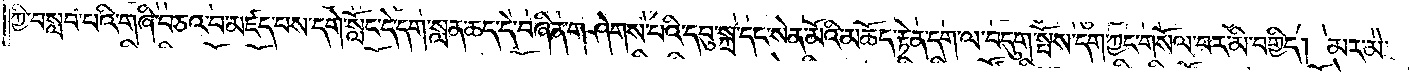ཀྱི་བསླབ་པའི་གཞི་བཅའ་བ་མཛད་པས་དགེ་སློང་དེ་དག་སླན་ཆད་དེ་བཞིན་གཤེགས་པའི་དབུ་སྐྲ་དང་སེན་མོའི་མཆོད་རྟེན་དག་ལ་བདུག་སྤོས་དག་ཀྱང་གསོལ་བར་མི་བགྱིད། མར་མེ་
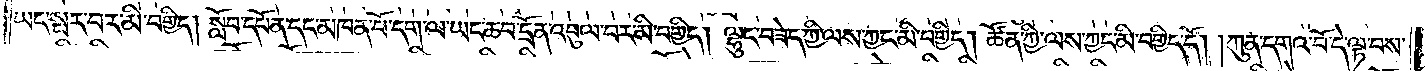ཡང་སྤར་བར་མི་བགྱིད། སློབ་དཔོན་དང་མཁན་པོ་དག་ལ་ཡང་ཆབ་དྲོན་འབུལ་བར་མི་བགྱིད། ལྷུང་བཟེད་ཀྱི་ལས་ཀྱང་མི་བགྱིད། ཚོན་ཀྱི་ལས་ཀྱང་མི་བགྱིད་དོ། །ཀུན་དགའ་བོ་དེ་ལྟ་བས་
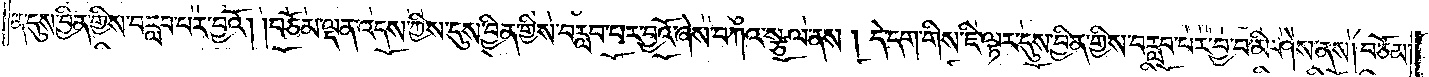ན་དུས་བྱིན་གྱིས་བརླབ་བར་བྱའོ། །བཅོམ་ལྡན་འདས་ཀྱིས་དུས་བྱིན་གྱིས་བརླབ་པར་བྱའོ་ཞེས་བཀའ་སྩལ་ནས། དེ་དག་གིས་ཇི་ལྟར་དུས་བྱིན་གྱིས་བརླབ་པར་བྱ་བ་མི་ཤེས་ནས། བཅོམ་
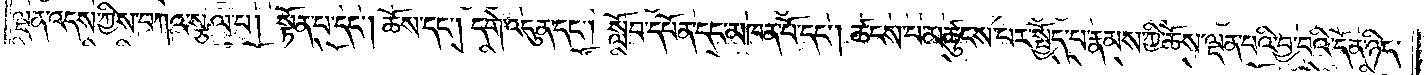ལྡན་འདས་ཀྱིས་བཀའ་སྩལ་པ། སྟོན་པ་དང༌། ཆོས་དང༌། དགེ་འདུན་དང༌། སློབ་དཔོན་དང་མཁན་པོ་དང༌། ཚངས་པ་མཚུངས་པར་སྤྱོད་པ་རྣམས་ཀྱི་ཆོས་ལྡན་པའི་བྱ་བའི་དོན་ཉིད་
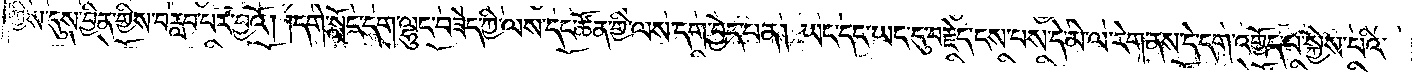ཀྱིས་དུས་བྱིན་གྱིས་བརླབ་པར་བྱའོ། །དགེ་སློང་དག་ལྷུང་བཟེད་ཀྱི་ལས་དང་ཚོན་གྱི་ལས་དག་བྱེད་པ་ན། ཡང་དང་ཡང་དུ་བརྗེད་ངས་པས་དེ་མེ་ལ་རེག་ནས་དེ་དག་འགྱོད་པ་སྐྱེས་པའི་
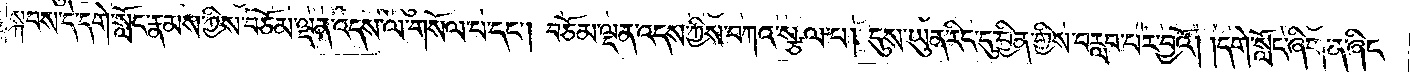སྐབས་དེ་དགེ་སློང་རྣམས་ཀྱིས་བཅོམ་ལྡན་འདས་ལ་གསོལ་པ་དང༌། བཅོམ་ལྡན་འདས་ཀྱིས་བཀའ་སྩལ་པ། དུས་ཡུན་རིང་དུ་བྱིན་གྱིས་བརླབ་པར་བྱའོ། །དགེ་སློང་ཞིག་ན་ཞིང་
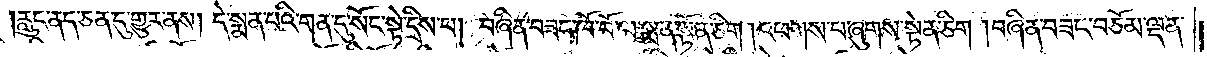རླུང་ནད་ཅན་དུ་གྱུར་ནས། དེ་སྨན་པའི་གན་དུ་སོང་སྟེ་དྲིས་པ། བཞིན་བཟང་ཁོ་བོ་ལ་སྨན་སྟོན་ཅིག །འཕགས་པ་ཞུགས་སྟེན་ཅིག །བཞིན་བཟང་བཅོམ་ལྡན་
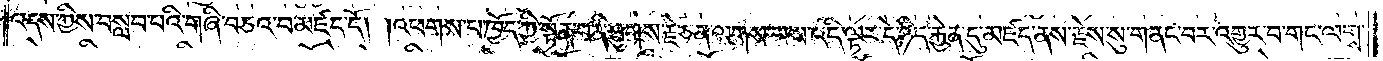འདས་ཀྱིས་བསླབ་པའི་གཞི་བཅའ་བ་མཛད་དོ། །འཕགས་པ་ཁྱོད་ཀྱི་སྟོན་པ་ནི་ཐུགས་རྗེ་ཅན་ལགས་པས་འདི་ལྟར་དེ་ཉིད་རྐྱེན་དུ་མཛད་ནས་རྗེས་སུ་གནང་བར་འགྱུར་བ་གང་ལགས་
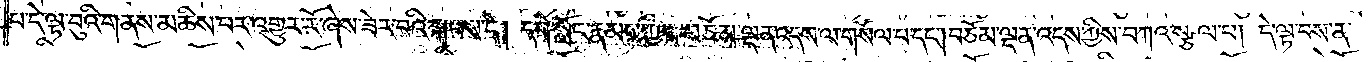པ་དེ་ལྟ་བུའི་གནས་མཆིས་པར་འགྱུར་རོ་ཞེས་ཟེར་བའི་སྐབས་དེ། དགེ་སློང་རྣམས་ཀྱིས་བཅོམ་ལྡན་འདས་ལ་གསོལ་པ་དང༌། བཅོམ་ལྡན་འདས་ཀྱིས་བཀའ་སྩལ་པ། དེ་ལྟ་བས་ན་
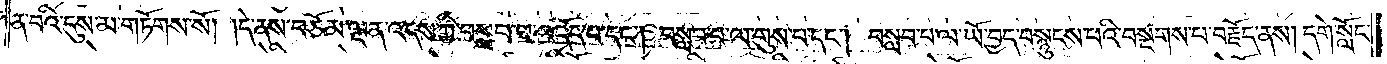ན་བའི་དུས་མ་གཏོགས་སོ། །དེ་ནས་བཅོམ་ལྡན་འདས་ཀྱི་བསླབ་པ་འདོད་པ་དང༌། བསླབ་པ་ལ་གུས་པ་དང༌། བསླབ་པ་ལ་ཡོ་བྱད་བསྙུངས་པའི་བསྔགས་པ་བརྗོད་ནས། དགེ་སློང་
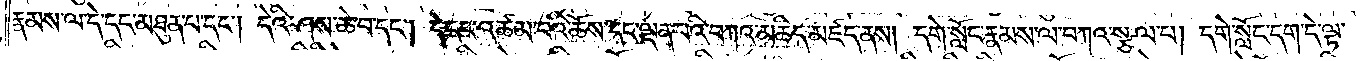རྣམས་ལ་དེ་དང་མཐུན་པ་དང༌། དེའི་ཤས་ཆེ་བ་དང༌། དེ་དང་འཚམ་པའི་ཆོས་དང་ལྡན་པའི་བཀའ་མཆིད་མཛད་ནས། དགེ་སློང་རྣམས་ལ་བཀའ་སྩལ་པ། དགེ་སློང་དག་དེ་ལྟ་
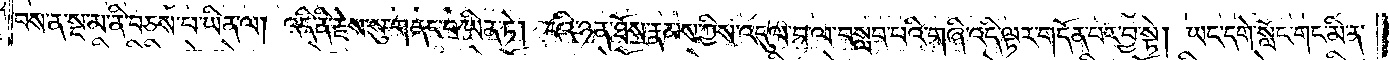བས་ན་སྔ་མ་ནི་བཅས་པ་ཡིན་ལ། འདི་ནི་རྗེས་སུ་གནང་བ་ཡིན་ཏེ། ངའི་ཉན་ཐོས་རྣམས་ཀྱིས་འདུལ་བ་ལ་བསླབ་པའི་གཞི་འདི་ལྟར་གདོན་པར་བྱ་སྟེ། ཡང་དགེ་སློང་གང་མི་ན་
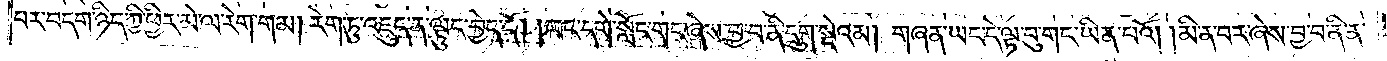བར་བདག་ཉིད་ཀྱི་ཕྱིར་མེ་ལ་རེག་གམ། རེག་ཏུ་འཇུད་ན་ལྟུང་བྱེད་དོ། །ཡང་དགེ་སློང་གང་ཞེས་བྱ་བ་ནི་དྲུག་སྡེའམ། གཞན་ཡང་དེ་ལྟ་བུ་གང་ཡིན་པའོ། །མི་ན་བར་ཞེས་བྱ་བ་ནི་ན་
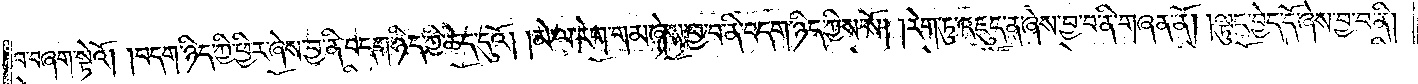བ་བཞག་སྟེའོ། །བདག་ཉིད་ཀྱི་ཕྱིར་ཞེས་བྱ་བ་ནི་བདག་ཉིད་ཀྱི་ཆེད་དུའོ། །མེ་ལ་རེག་གམ་ཞེས་བྱ་བ་ནི་བདག་ཉིད་ཀྱིས་སོ། །རེག་ཏུ་འཇུད་ན་ཞེས་བྱ་བ་ནི་གཞན་ནོ། །ལྟུང་བྱེད་དོ་ཞེས་བྱ་བ་ནི།
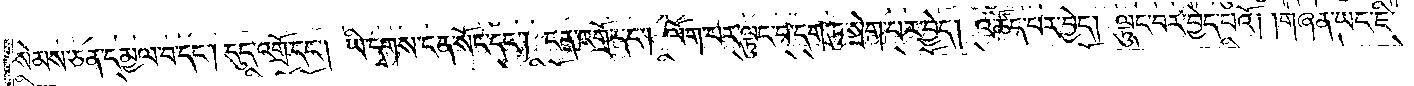སེམས་ཅན་དམྱལ་བ་དང༌། དུད་འགྲོ་དང༌། ཡི་དྭགས་ངན་སོང་དང༌། ངན་འགྲོ་དང༌། ལོག་པར་ལྟུང་བ་དག་ཏུ་སྲེག་པར་བྱེད། འཚོད་པར་བྱེད། ལྟུང་བར་བྱེད་པའོ། །གཞན་ཡང་ཇི་
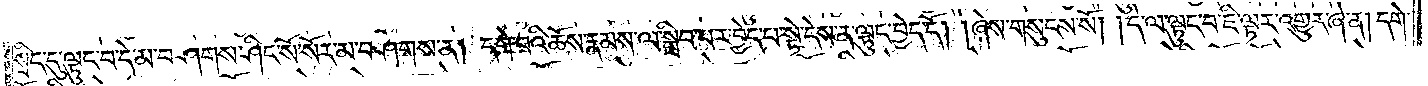སྲིད་དུ་ལྟུང་བ་དེ་མ་བཤགས་ཤིང་སོ་སོར་མ་བཤགས་ན། དགེ་བའི་ཆོས་རྣམས་ལ་སྒྲིབ་པར་བྱེད་པ་སྟེ་དེས་ན་ལྟུང་བྱེད་དོ། །ཞེས་གསུངས་སོ། །དེ་ལ་ལྟུང་བ་ཇི་ལྟར་འགྱུར་ཞེ་ན། དགེ་
